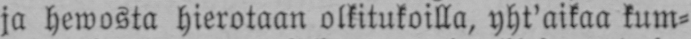ja hawosta hierotaan olkitukoilla, yht'aikaa kum-
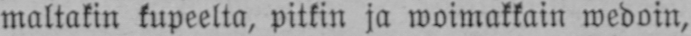maltakin kupeelta, pitkin ja woimakkain wedoin,
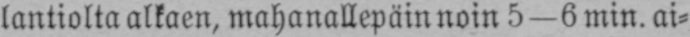lantiolta alkaen, mahanallepäin noin 5—6 min. ai-
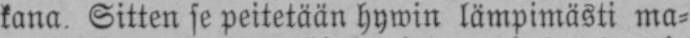kana. Sitten se peitetään hywin lämpimästi ma-
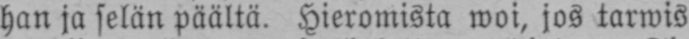han ja selän päältä. Hieromista woi, jos tarwis
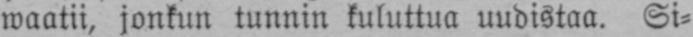waatii, jonkun tunnin kuluttua uudistaa. Si-
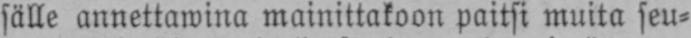sälle annettawina mainittakoon paitsi muita seu-
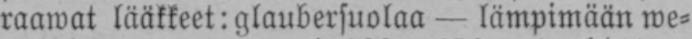raawat lääkkeet: glaubersuolaa — lämpimään we-
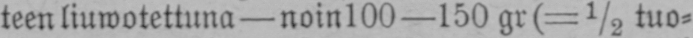teen liuwotettuna — noin 100—150 gr(= ½ tuo-
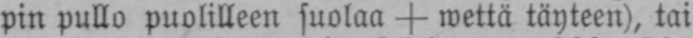pin pullo puolilleen suolaa + wettä täyteen), tai
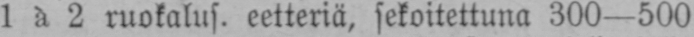1 à 2 ruokalus. eetteriä, sekoitettuna 300 —500
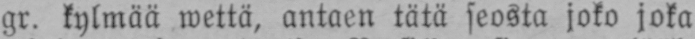gr. kylmää wettä, antaen tätä seosta joko joka
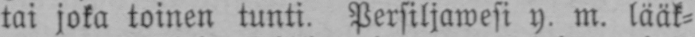tai joka toinen tunti. Persiljawesi y. m. lääk-
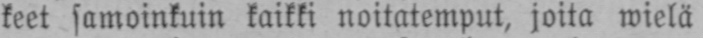keet samoinkuin kaikki noitatemput, joita wielä
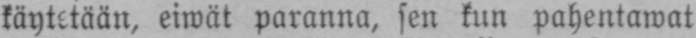käytetään, eiwät paranna, sen kun pahentawat
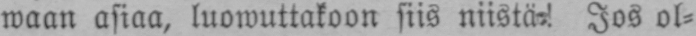waan asiaa, luowuttakoon siis niistä. Jos ol-
